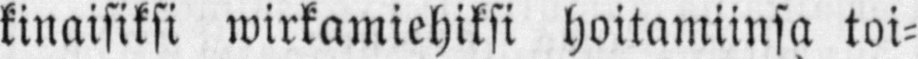kinaisiksi wirkamiehiksi hoitamiinsa toi-
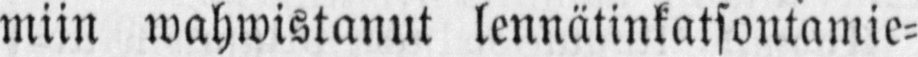miin wahwistanut lennätinkatsontamie-
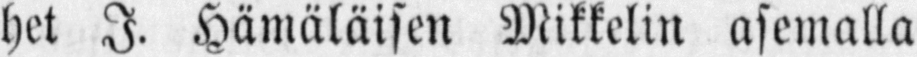het J. Hämäläisen Mikkelin asemalla
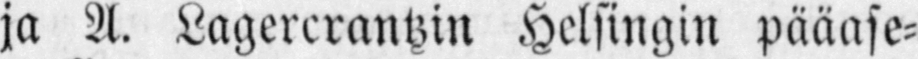ja A. Lagercrantzin Helsingin pääase-
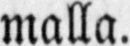malla.
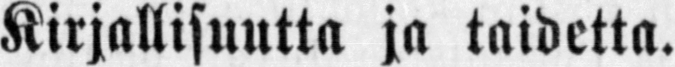Kirjallisuutta ja taidetta.
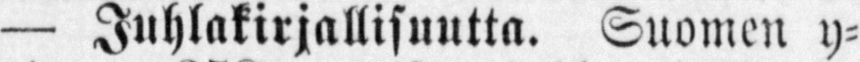— Juhlakirjallisuutta. Suomen y-
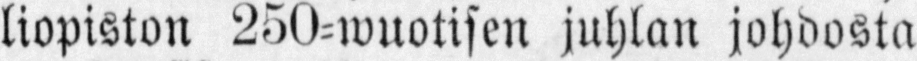liopiston 250-wuotisen juhlan johdosta
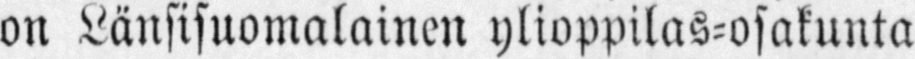on Länsisuomalainen ylioppilas-osakunta
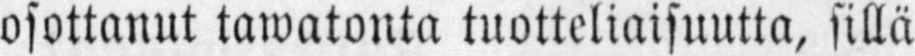osottanut tawatonta tuotteliaisuutta, sillä
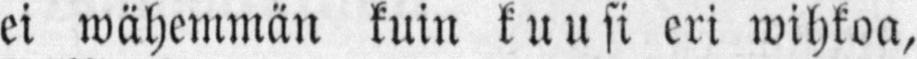ei wähemmän kuin kuusi eri wihkoa,
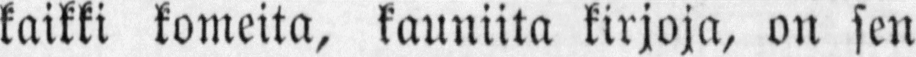kaikki komeita, kauniita kirjoja, on sen
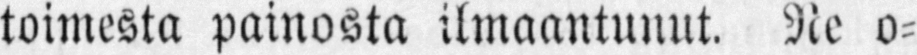toimesta painosta ilmaantunut. Ne o-
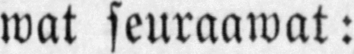wat seuraawat:
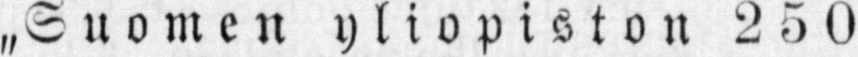„Suomen yliopiston 250
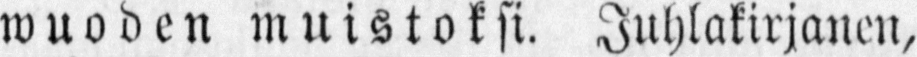wuoden muistoksti. Juhlakirjanen,
